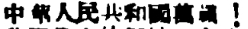中華人民共和國萬歲！
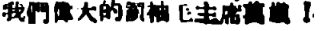我們偉大的領袖毛主席萬歲！
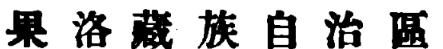果 洛 藏 族 自 治 區
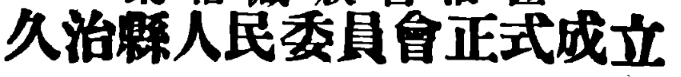久治縣人民委員會正式成立
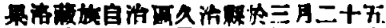果洛藏族自治區久治縣於三月二十五
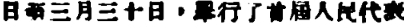日至三月三時日，舉行了首屆人民代表
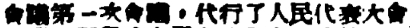會議第一次會議，代行了人民代表大會
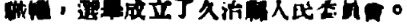職權，選舉成立了久治縣人民委員會。
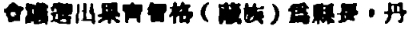會議選出果靑智格（藏族）爲縣長，丹
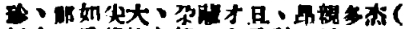珍、祁如尖大、尕藏才旦、昂親多杰（
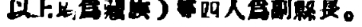以上均爲藏族）等四人爲副縣長。
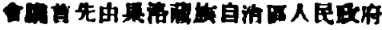會議首先由果洛藏族自治區人民政府
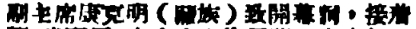副主席康克明（藏族）致開幕詞，接着
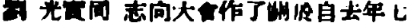劉 光實同 志向大會作了關於自去年七
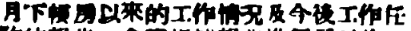月下帳房以來的工作情況及今後工作任
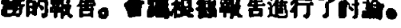務的報告。會議根據報告進行了討論。
